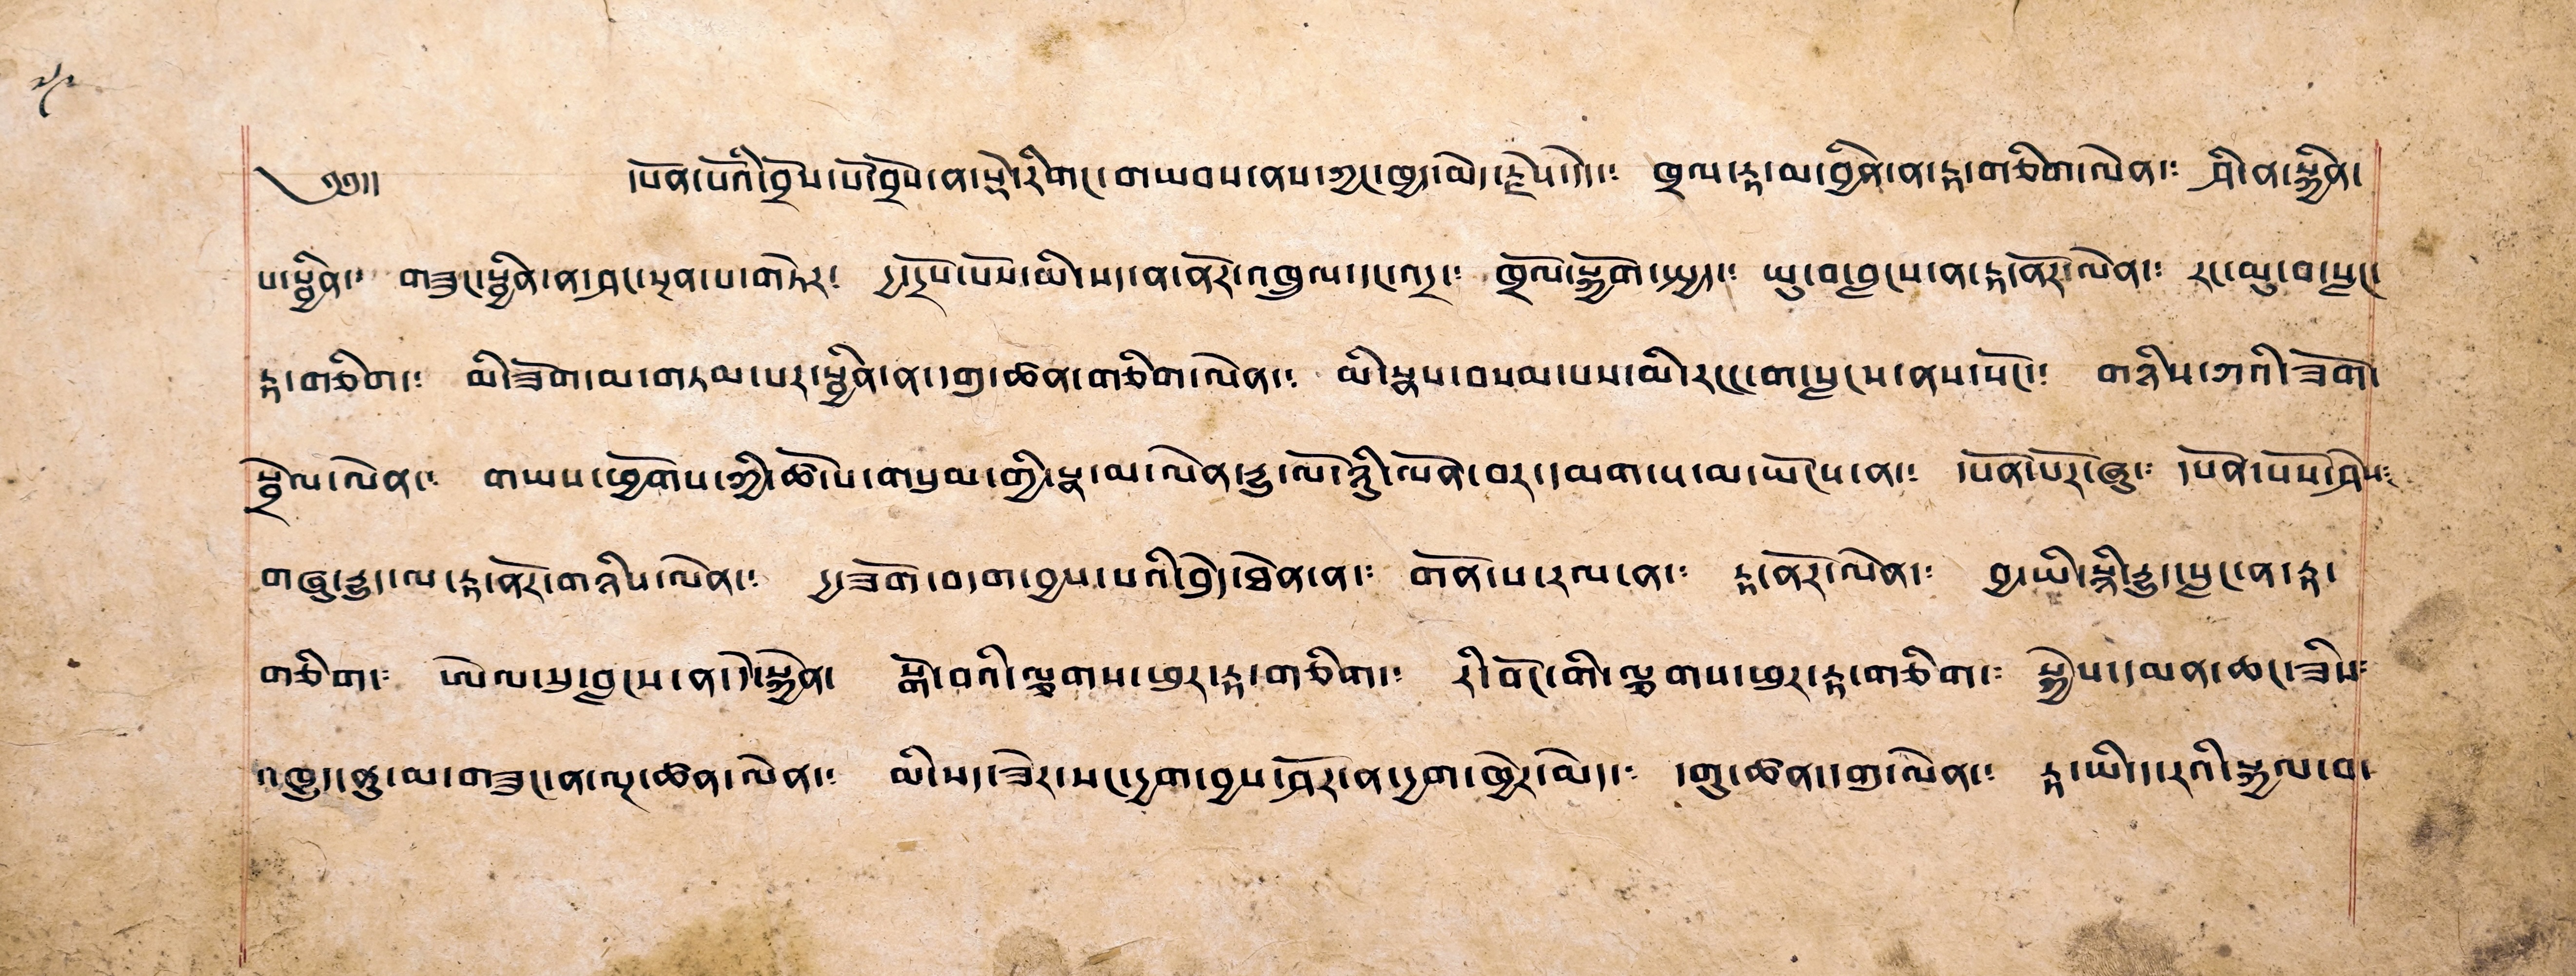༄༅།། དཔོན་པོའི་བྲོས་པོ་བྲོས་ན་སྡེ་རིགང་གཡབས་ནས་ཀྱང་ཁྱད་མེ་རྗེས་དེད་༴ ཁྲལ་རྟ་མ་བྱིན་ན་རྟ་གཅིག་ལེན་༴ ཤི་ན་སྐྱིན་
པ་སྦྱིན་༴ གཟུང་སྦྱིན་ན་ཤང་སྔན་པ་གཏེར། དྱ་དྲོས་པོས་མི་སད་ན་ནོར་འཁྲུལ་དང་འདྲ་༴ ཁྲོལ་སྐྱོག་སྤྱད་༴ ཡུ་བ་བླངས་ན་རྟ་ནོར་ལེན་༴ རང་མུ་བ་སླང་
རྟ་གཅིག་༴ མི་ཟོག་མ་གཏམ་པར་སྦྱིན་ན་དགུ་ཚན་གཅིག་ལེན་༴ མི་སྣས་བསམ་པས་མི་རང་དག་སླངས་ནས་སོང་༴ གཉིས་ཀའི་ཟོག་
སྦྲེལ་ལེན་༴ གཡས་ཕྱོགས་ཀྱི་ཚེ་པ་གསུམ་གྱི་སྣ་མ་ལེན་རྒྱུ་ལོ་ཉིུ་ལོན་བར་དམག་པ་མ་ཡོངས་ན་༴ དཔོན་པོར་ཞུ་༴ དཔོན་པོས་ཤེས༴
གཞུ་རྒྱུད་ལ་རྟ་ནོར་གཉིས་ལེན་༴ དྱ་ཟོག་བདག་བྱས་པའི་བྱེད་ཐོན་ན་༴ གོན་པ་རལ་ན་༴ རྟ་ནོར་ལེན་༴ བྱ་ཡི་སྙི་རྒྱུ་སླང་ན་རྟ་
གཅིག་༴ ཨེལ་སུ་བླངས་ན་དེ་སྐྱེན། སྒོ་བའི་ལྕགས་ཕྱར་རྟ་གཅིག་༴ རི་བོང་གི་ལྕགས་ཕར་རྟ་གཅིག་༴ སྐྱེས་དམན་ཆང་ཟིས༴
འཁྱུད་ནུ་མ་གཟུང་ན་ལྔ་ཚན་ལེན་༴ མི་སད་ཟེར་སང་དྱག་བྱས་ཤོར་ན་དྱག་ཁྱེར་མེད་༴ དགུ་ཚན་དགུ་ལེན་༴ རྟ་ཡི་ད་རའི་སྐྱལ་བ
